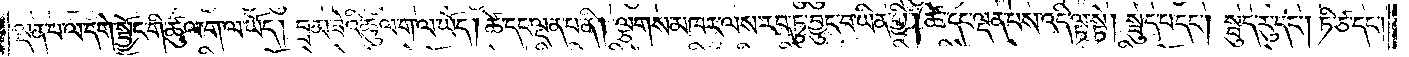ལྡན་པ་ལ་དགེ་སྦྱོང་གི་ཚུལ་ག་ལ་ཡོད། བྲམ་ཟེའི་ཚུལ་ག་ལ་ཡོད། ཚེ་དང་ལྡན་པ་ནི། ལྕགས་མཁར་ལས་རབ་ཏུ་བྱུང་བ་ཡིན་གྱི། ཚེ་དང་ལྡན་པས་འདི་ལྟ་སྟེ། སྦུད་པ་དང༌། སྦུད་རུ་དང༌། ཏི་ཙ་དང༌།
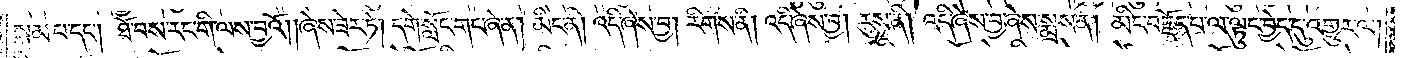སྐམ་པ་དང༌། ཐོ་བས་རང་གི་ལས་བྱའོ། །ཞེས་ཟེར་ཏེ། དགེ་སློང་གང་ཞེ་ན། མིང་ནི། འདི་ཞེས་བྱ། རིགས་ནི། འདི་ཞེས་བྱ། རུས་ནི། འདི་ཞེས་བྱ་ཞེས་སྨྲས་ན། མིང་བརྗོད་པ་ལ་ལྟུང་བྱེད་དུ་འགྱུར་ལ།
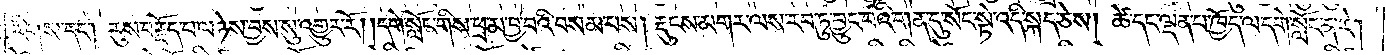རིགས་དང༌། རུས་བརྗོད་པ་ལ་ཉེས་བྱས་སུ་འགྱུར་རོ། །དགེ་སློང་གིས་ཕྲ་མ་བྱ་བའི་བསམ་པས། རྡུངས་མགར་ལས་རབ་ཏུ་བྱུང་བའི་གན་དུ་སོང་སྟེ་འདི་སྐད་ཅེས། ཚེ་དང་ལྡན་པ་ཁྱོད་ལ་དགེ་སློང་ན་རེ།
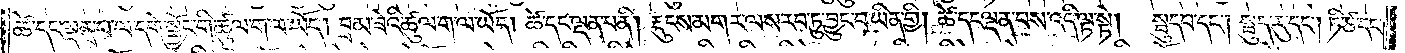ཚེ་དང་ལྡན་པ་ལ་དགེ་སྦྱོང་གི་ཚུལ་ག་ལ་ཡོད། བྲམ་ཟེའི་ཚུལ་ག་ལ་ཡོད། ཚེ་དང་ལྡན་པ་ནི། རྡུངས་མགར་ལས་རབ་ཏུ་བྱུང་བ་ཡིན་གྱི། ཚེ་དང་ལྡན་པས་འདི་ལྟ་སྟེ། སྤུད་པ་དང༌། སྦུད་རུ་དང༌། ཏི་ཙ་དང་
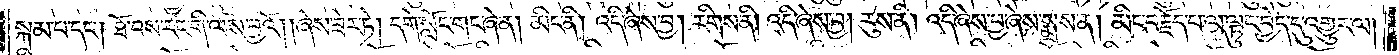སྐམ་པ་དང༌། ཐོ་བས་རང་གི་ལས་བྱའོ། །ཞེས་ཟེར་ཏེ། དགེ་སློང་གང་ཞེ་ན། མིང་ནི། འདི་ཞེས་བྱ། རིགས་ནི། འདི་ཞེས་བྱ། རུས་ནི། འདི་ཞེས་བྱ་ཞེས་སྨྲས་ན། མིང་བརྗོད་པ་ལ་ལྟུང་བྱེད་དུ་འགྱུར་ལ།
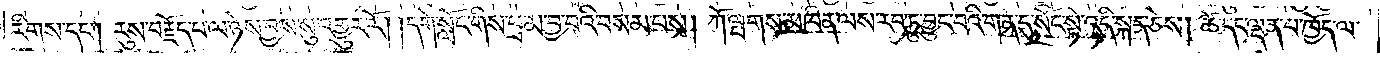རིགས་དང༌། རུས་བརྗོད་པ་ལ་ཉེས་བྱས་སུ་འགྱུར་རོ། །དགེ་སློང་གིས་ཕྲ་མ་བྱ་བའི་བསམ་པས། ཀོ་ལྤགས་མཁན་ལས་རབ་ཏུ་བྱུང་བའི་གན་དུ་སོང་སྟེ་འདི་སྐད་ཅེས། ཚེ་དང་ལྡན་པ་ཁྱོད་ལ་
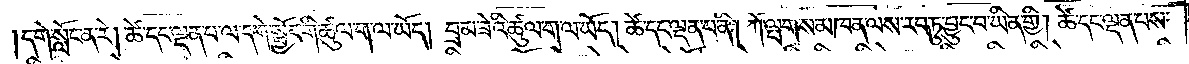དགེ་སློང་ན་རེ། ཚེ་དང་ལྡན་པ་ལ་དགེ་སྦྱོང་གི་ཚུལ་ག་ལ་ཡོད། བྲམ་ཟེའི་ཚུལ་ག་ལ་ཡོད། ཚེ་དང་ལྡན་པ་ནི། ཀོ་ལྤགས་མཁན་ལས་རབ་ཏུ་བྱུང་བ་ཡིན་གྱི། ཚེ་དང་ལྡན་པས་
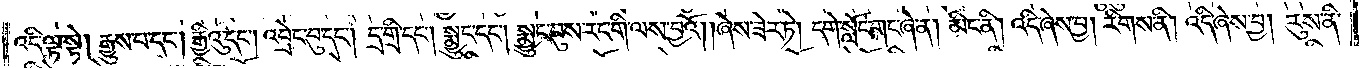འདི་ལྟ་སྟེ། རྒྱུས་པ་དང༌། རྒྱིའུ་དང༌། འབྲེང་བུ་དང༌། དྲ་གྲི་དང༌། སྨྱུང་དང༌། སྨྱུང་བུས་རང་གི་ལས་བྱའོ། །ཞེས་ཟེར་ཏེ། དགེ་སློང་གང་ཞེ་ན། མིང་ནི། འདི་ཞེས་བྱ། རིགས་ནི། འདི་ཞེས་བྱ། རུས་ནི་
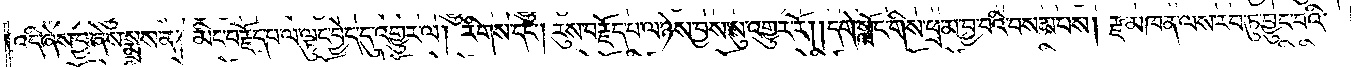འདི་ཞེས་བྱ་ཞེས་སྨྲས་ན། མིང་བརྗོད་པ་ལ་ལྟུང་བྱེད་དུ་འགྱུར་ལ། རིགས་དང༌། རུས་བརྗོད་པ་ལ་ཉེས་བྱས་སུ་འགྱུར་རོ། །དགེ་སློང་གིས་ཕྲ་མ་བྱ་བའི་བསམ་པས། རྫ་མཁན་ལས་རབ་ཏུ་བྱུང་བའི་
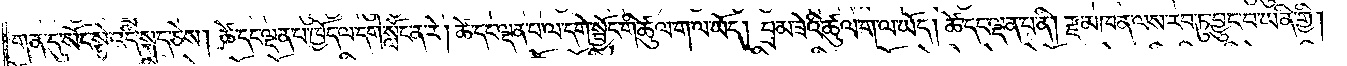གན་དུ་སོང་སྟེ་འདི་སྐད་ཅེས། ཚེ་དང་ལྡན་པ་ཁྱོད་ལ་དགེ་སློང་ན་རེ། ཚེ་དང་ལྡན་པ་ལ་དགེ་སྦྱོང་གི་ཚུལ་ག་ལ་ཡོད། བྲམ་ཟེའི་ཚུལ་ག་ལ་ཡོད། ཚེ་དང་ལྡན་པ་ནི། རྫ་མཁན་ལས་རབ་ཏུ་བྱུང་བ་ཡིན་གྱི།
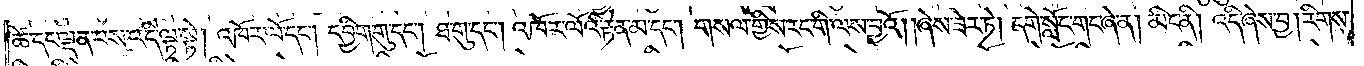ཚེ་དང་ལྡན་པས་འདི་ལྟ་སྟེ། འཁོར་ལོ་དང༌། དབྱིག་གུ་དང༌། ཐ་གུ་དང༌། འཁོར་ལོའི་རྟེན་མ་དང༌། གསལ་གྱིས་རང་གི་ལས་བྱའོ། །ཞེས་ཟེར་ཏེ། དགེ་སློང་གང་ཞེ་ན། མིང་ནི། འདི་ཞེས་བྱ། རིགས་
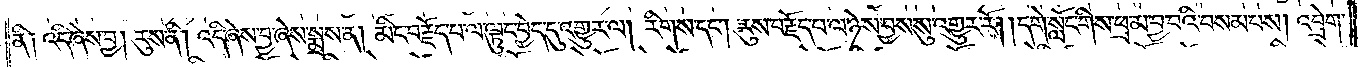ནི། འདི་ཞེས་བྱ། རུས་ནི། འདི་ཞེས་བྱ་ཞེས་སྨྲས་ན། མིང་བརྗོད་པ་ལ་ལྟུང་བྱེད་དུ་འགྱུར་ལ། རིགས་དང༌། རུས་བརྗོད་པ་ལ་ཉེས་བྱས་སུ་འགྱུར་རོ། །དགེ་སློང་གིས་ཕྲ་མ་བྱ་བའི་བསམ་པས། འབྲེག་
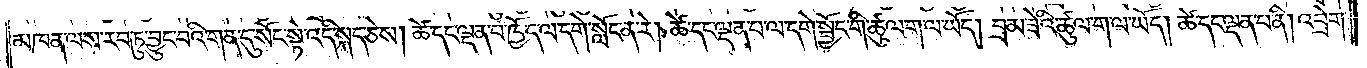མཁན་ལས་རབ་ཏུ་བྱུང་བའི་གན་དུ་སོང་སྟེ་འདི་སྐད་ཅེས། ཚེ་དང་ལྡན་པ་ཁྱོད་ལ་དགེ་སློང་ན་རེ། ཚེ་དང་ལྡན་པ་ལ་དགེ་སྦྱོང་གི་ཚུལ་ག་ལ་ཡོད། བྲམ་ཟེའི་ཚུལ་ག་ལ་ཡོད། ཚེ་དང་ལྡན་པ་ནི། འབྲེག་
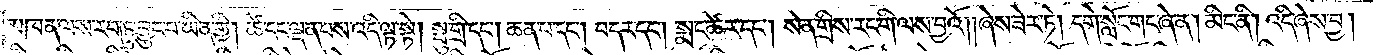མཁན་ལས་རབ་ཏུ་བྱུང་བ་ཡིན་གྱི། ཚེ་དང་ལྡན་པས་འདི་ལྟ་སྟེ། སྤུ་གྲི་དང༌། ཆན་པ་དང༌། བདར་དང༌། སྨང་ཚེར་དང༌། སེན་གྲིས་རང་གི་ལས་བྱའོ། །ཞེས་ཟེར་ཏེ། དགེ་སློང་གང་ཞེ་ན། མིང་ནི། འདི་ཞེས་བྱ།
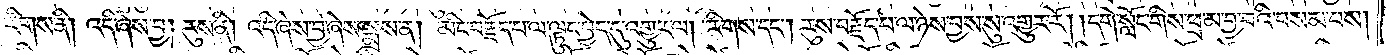རིགས་ནི། འདི་ཞེས་བྱ། རུས་ནི། འདི་ཞེས་བྱ་ཞེས་སྨྲས་ན། མིང་བརྗོད་པ་ལ་ལྟུང་བྱེད་དུ་འགྱུར་ལ། རིགས་དང༌། རུས་བརྗོད་པ་ལ་ཉེས་བྱས་སུ་འགྱུར་རོ། །དགེ་སློང་གིས་ཕྲ་མ་བྱ་བའི་བསམ་པས།
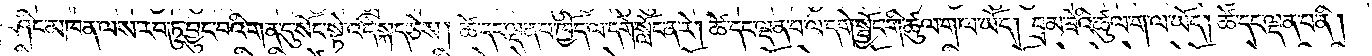ཤིང་མཁན་ལས་རབ་ཏུ་བྱུང་བའི་གན་དུ་སོང་སྟེ་འདི་སྐད་ཅེས། ཚེ་དང་ལྡན་པ་ཁྱོད་ལ་དགེ་སློང་ན་རེ། ཚེ་དང་ལྡན་པ་ལ་དགེ་སྦྱོང་གི་ཚུལ་ག་ལ་ཡོད། བྲམ་ཟེའི་ཚུལ་ག་ལ་ཡོད། ཚེ་དང་ལྡན་པ་ནི།
